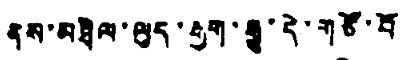ནས་མཐིལ་ལུད་རྒྱུག་རྒྱུ་དེ་གཙོ་བོ
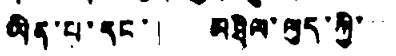ཡིན་པ་དང་། མཐིལ་ལུད་ཀྱི་
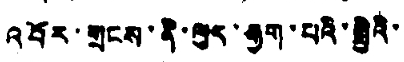འབོར་གྲངས་ནི་ལུད་རྒྱག་པའི་སྤྱིའི་
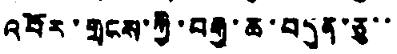འབོར་གྲངས་ཀྱི་བརྒྱ་ཆ་བདུན་ཅུ་་
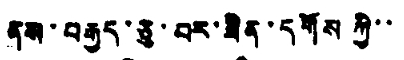ནས་བརྒྱད་ཅུ་བར་ཟིན་དགོས ཀྱི་་
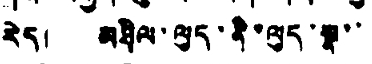རེད། མཐིལ་ལུད་ནི་ལུད་སྣ་་
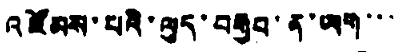འཛོམས་པའི་ལུད་བརྒྱབ་ན་ཡག་་་
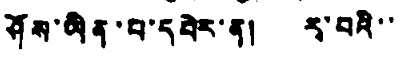ཤོས་ཡིན་པ་དཔེར་ན། རྭ་བའི་་
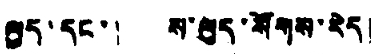ལུད་དང་། ས་ལུད་སོགས་རེད།
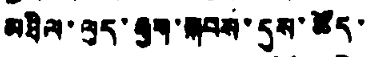མཐིལ་ལུད་རྒྱག་སྐབས་དུས་ཚོད་
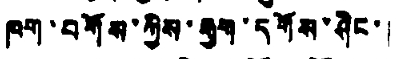ཁག་བགོས་ཀྱིས་རྒྱག་དགོས་ཤིང་།
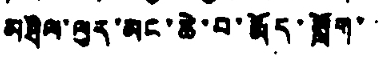མཐིལ་ལུད་མང་ཆེ་བ་རྨོད་སློག་་་
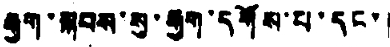རྒྱག་སྐབས་སུ་རྒྱག་དགོས་པ་དང་།
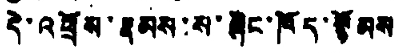དེ་འཕྲོས་རྣམས་ས་ཞིང་ཁོད་སྙོམས
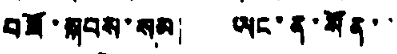བཟོ་སྐབས་སམ། ཡང་ན་སོན་་
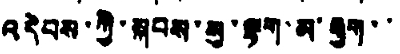འདེབས་ཀྱི་སྐབས་ཟུ་ལྟག་མ་རྒྱག་་
